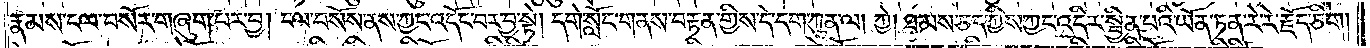རྣམས་ངལ་བསོར་གཞུག་པར་བྱ། ངལ་བསོས་ནས་ཀྱང་འདོང་བར་བྱ་སྟེ། དགེ་སློང་གནས་བརྟན་གྱིས་དེ་དག་ཀུན་ལ། ཀྱེ། ཐམས་ཅད་ཀྱིས་ཀྱང་འདིར་སྦྱིན་པའི་ཡོན་ཏན་རེ་རེ་རྗོད་ཅིག །
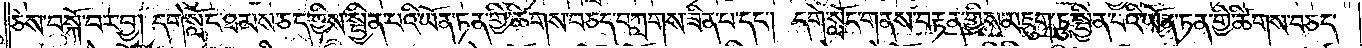ཅེས་བསྐོ་བར་བྱ། དགེ་སློང་ཐམས་ཅད་ཀྱིས་སྦྱིན་པའི་ཡོན་ཏན་གྱི་ཚིགས་བཅད་བཀླགས་ཟིན་པ་དང༌། དགེ་སློང་གནས་བརྟན་གྱིས་མཇུག་ཏུ་སྦྱིན་པའི་ཡོན་ཏན་གྱི་ཚིགས་བཅད་
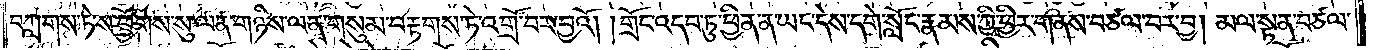བཀླགས་ཏེ་ས་ཕྱོགས་སུ་ལན་གཉིས་ལན་གསུམ་བརྟགས་ཏེ་འགྲོ་བར་བྱའོ། །གྲོང་འདབ་ཏུ་ཕྱིན་ན་ཡང་དེས་དགེ་སློང་རྣམས་ཀྱི་ཕྱིར་གནས་བཙལ་བར་བྱ། མལ་སྟན་བཙལ་
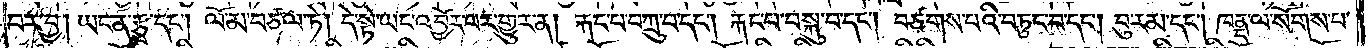བར་བྱ། ཡང་ན་རྩྭ་དང༌། ལོ་མ་བཙལ་ཏེ། དེ་སྟེ་ཡང་འབྱོར་པར་གྱུར་ན། རྐང་པ་བཀྲུ་བ་དང༌། རྐང་པ་བསྐུ་བ་དང༌། བཙགས་པའི་བཏུང་བ་དང༌། བུ་རམ་དང༌། ཁནྡ་ལ་སོགས་པ་
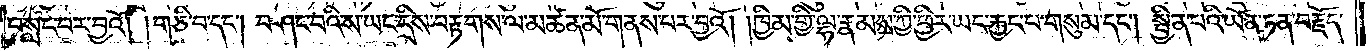བསླང་བར་བྱའོ། །གཅི་བ་དང༌། བཤང་བའི་ས་ཡང་དྲིས་བརྟགས་ལ་མཚན་མོ་གནས་པར་བྱའོ། །ཁྱིམ་གྱི་ལྷ་རྣམས་ཀྱི་ཕྱིར་ཡང་རྐྱང་པ་གསུམ་དང༌། སྦྱིན་པའི་ཡོན་ཏན་བརྗོད་
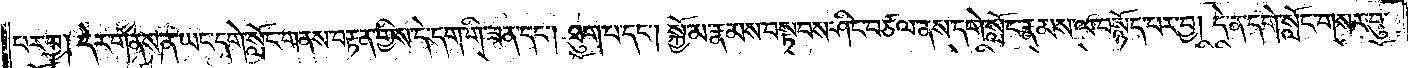པར་བྱ། དེར་གནས་ན་ཡང་དགེ་སློང་གནས་བརྟན་གྱིས་དེ་དག་གི་ཟན་དང༌། ཐུག་པ་དང༌། སྐྱོ་མ་རྣམས་བསྟབས་ཤིང་བཙལ་ནས་དགེ་སློང་རྣམས་ལ་བསྙོད་པར་བྱ། དེ་ན་དགེ་སློང་གསར་བུ་
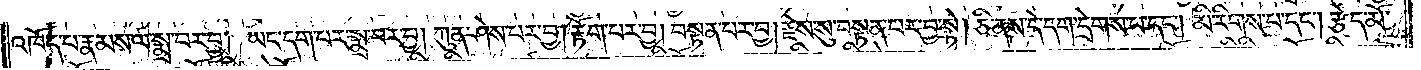འཁོད་པ་རྣམས་ལ་སྨྲ་བར་བྱ། ཡང་དག་པར་སྨྲ་བར་བྱ། ཀུན་ཤེས་པར་བྱ། རྟོག་པར་བྱ། བསྟན་པར་བྱ། རྗེས་སུ་བསྟན་པར་བྱ་སྟེ། ཅི་ནས་དེ་དག་དྲེགས་པ་དང༌། མི་རིགས་པ་དང༌། རྩེད་མོ་
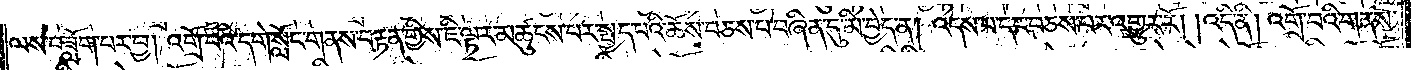ལས་བཟློག་པར་བྱ། འགྲོ་བའི་དགེ་སློང་གནས་བརྟན་གྱིས་ཇི་ལྟར་མཚུངས་པར་སྤྱད་པའི་ཆོས་བཅས་པ་བཞིན་དུ་མི་བྱེད་ན། འདས་པ་དང་བཅས་པར་འགྱུར་རོ། །འདི་ནི། འགྲོ་བའི་གནས་
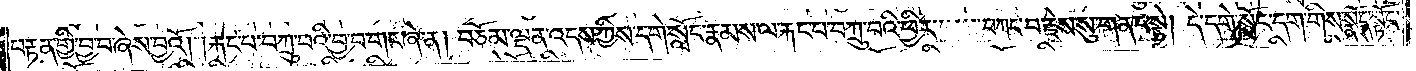བརྟན་གྱི་བྱ་བ་ཞེས་བྱའོ། །རྐང་པ་བཀྲུ་བའི་བྱ་བ་གང་ཞེ་ན། བཅོམ་ལྡན་འདས་ཀྱིས་དགེ་སློང་རྣམས་ལ་རྐང་པ་བཀུར་བའི་ཕྱིར་བཀང་བ་རྗེས་སུ་གནང་སྟེ། དེ་དགེ་སློང་དག་གིས་སྣོད་སྟོང་
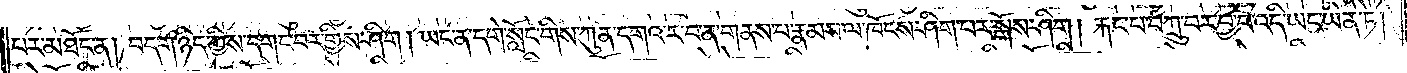པར་མཐོང་ན། བདག་ཉིད་ཀྱིས་དགང་བར་གྱིས་ཤིག །ཡང་ན་དགེ་སློང་གིས་ཀུན་དགའ་ར་བ་ན་གནས་པ་རྣམས་ལ་ཁོངས་ཤིག་པར་སྒོས་ཤིག །རྐང་པ་བཀྲུ་བར་བྱ་བ་འདི་ཡང་ཡིན་ཏེ།
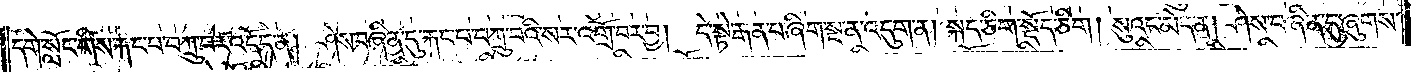དགེ་སློང་གིས་རྐང་པ་བཀྲུ་བར་འདོད་ན། ཤེས་བཞིན་དུ་རྐང་པ་བཀྲུ་བའི་སར་འགྲོ་བར་བྱ། དེ་སྟེ་རྒན་པ་ཞིག་སྔ་ན་འདུག་ན། སྐད་ཅིག་སྡོད་ཅིག །སུའང་མེད་ན། ཤེས་བཞིན་དུ་ཞུགས་
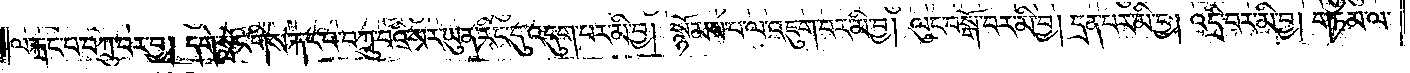ལ་རྐང་པ་བཀྲུ་བར་བྱ། དགེ་སློང་གིས་རྐང་པ་བཀྲུ་བའི་སར་ཡུན་རིང་དུ་འདུག་པར་མི་བྱ། སྙོམས་པ་ལ་འཇུག་པར་མི་བྱ། ལུང་བསྒོ་བར་མི་བྱ། དྲན་པར་མི་བྱ། འདྲི་བར་མི་བྱ། གཏམ་ལ་
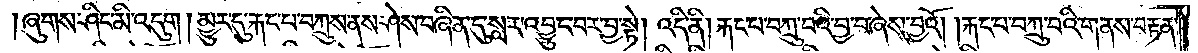ཞུགས་ཤིང་མི་འདུག །མྱུར་དུ་རྐང་པ་བཀྲུས་ནས་ཤེས་བཞིན་དུ་སླར་འབྱུང་བར་བྱ་སྟེ། འདི་ནི། རྐང་པ་བཀྲུ་བའི་བྱ་བ་ཞེས་བྱའོ། །རྐང་པ་བཀྲུ་བའི་གནས་བརྟན་
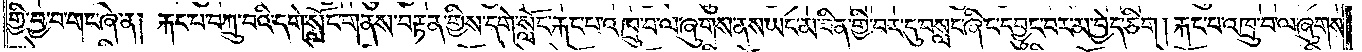གྱི་བྱ་བ་གང་ཞེ་ན། རྐང་པ་བཀྲུ་བའི་དགེ་སློང་གནས་བརྟན་གྱིས་དགེ་སློང་རྐང་པ་འཁྲུ་བ་ལ་ཞུགས་ནས་ཡང་མ་ཟིན་གྱི་བར་དུ་བསླང་ཞིང་དབྱུང་བར་མ་བྱེད་ཅིག །རྐང་པ་འཁྲུ་བ་ལ་ཞུགས་
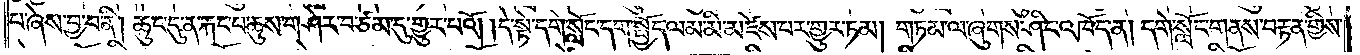པ་ཞེས་བྱ་བ་ནི། ཆུང་དུ་ན་རྐང་པ་ཆུས་གཤེར་བ་ཙམ་དུ་གྱུར་པའོ། །དེ་སྟེ་དགེ་སློང་དག་སྤྱོད་ལམ་མི་མཛེས་པར་གྱུར་ཏམ། གཏམ་ལ་ཞུགས་ཤིང་འཁོད་ན། དགེ་སློང་གནས་བརྟན་གྱིས་
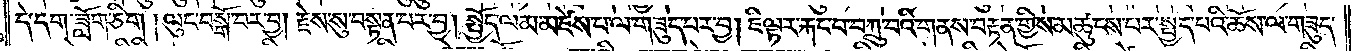དེ་དག་ཟློག་ཅིག །ལུང་བསྒོ་བར་བྱ། རྗེས་སུ་བསྟན་པར་བྱ། སྤྱོད་ལམ་མཛེས་པ་ལ་གཟུད་པར་བྱ། ཇི་ལྟར་རྐང་པ་བཀྲུ་བའི་གནས་བརྟན་གྱིས་མཚུངས་པར་སྤྱད་པའི་ཆོས་ལ་གཟུད་
